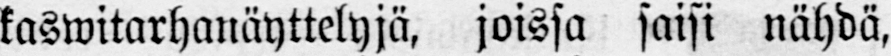kaswitarhanäyttelyjä, joissa saisi nähdä,
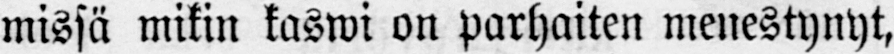missä mikin kaswi on parhaiten menestynyt,
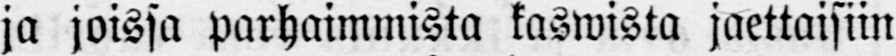ja joissa parhaimmista kaswista jaettaisiin
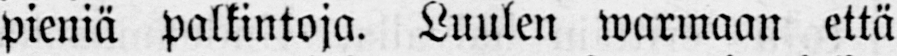pieniä palkintoja. Luulen warmaan että
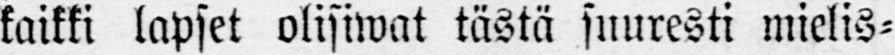kaikki lapset olisiwat tästä suuresti mielis-
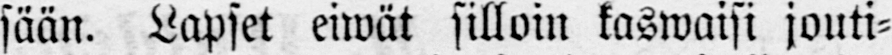sään. Lapset eiwät silloin kaswaisi jouti-
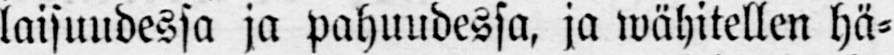laisuudessa ja pahuudessa, ja wähitellen hä-
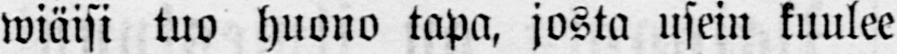wäisi tuo huono tapa, josta usein kuulee
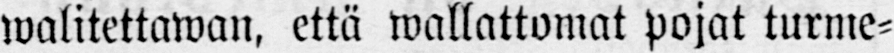walitettawan, että wallattomat pojat turme-
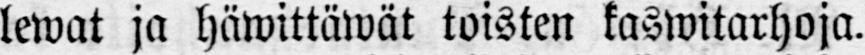lewat ja häwittäwät toisten kaswitarhoja.
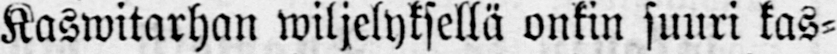Kaswitarhan wiljelyksellä onkin suuri kas-
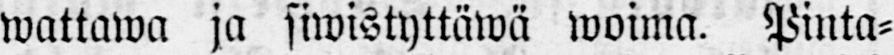wattawa ja siwistyttäwä woima. Pinta-
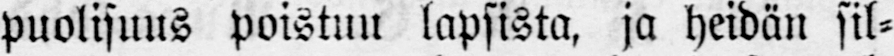puolisuus poistuu lapsista, ja heidän sil-
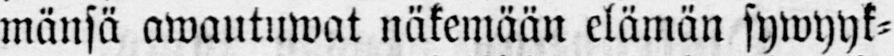mänsä awautuwat näkemään elämän sywyyk-
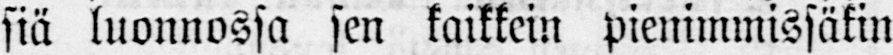siä luonnossa sen kaikkein pienimmissäkin
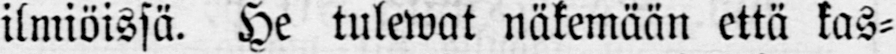ilmiöissä. He tulewat näkemään että kas-
